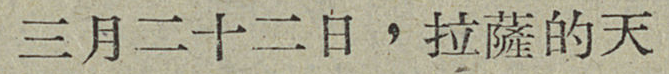三月二十二日，拉薩的天
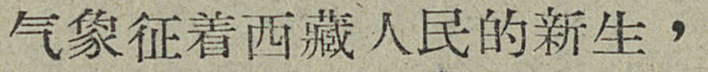气象征着西藏人民的新生，
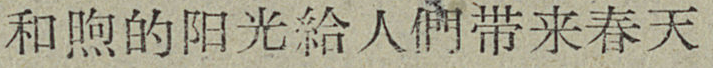和煦的阳光給人們带来春天
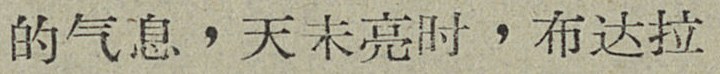的气息，天未亮时，布达拉
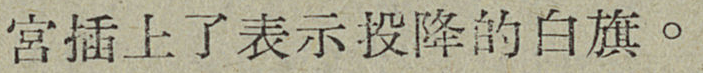宫插上了表示投降的白旗。
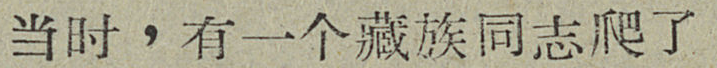当时，有一个藏族同志爬了
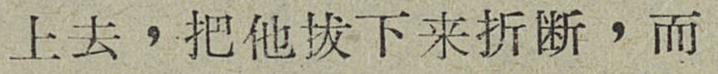上去，把他拔下来折断，而
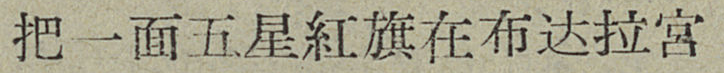把一面五星紅旗在布达拉宫
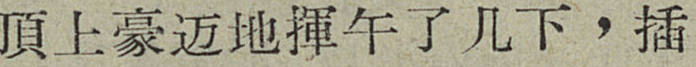頂上豪迈地揮午了几下，插
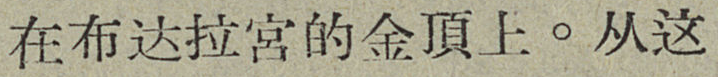在布达拉宫的金頂上。从这
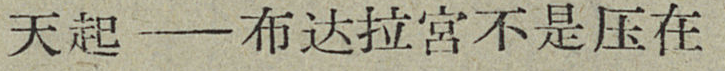天起——布达拉宫不是压在
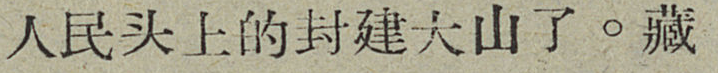人民头上的封建大山了。藏
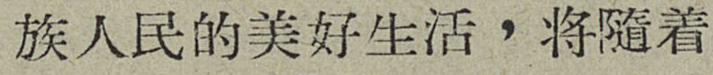组人民的美好生活，將隨着
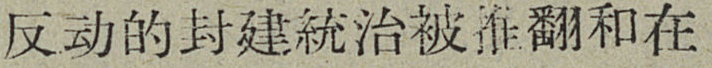反动的封建統治被推翻和在
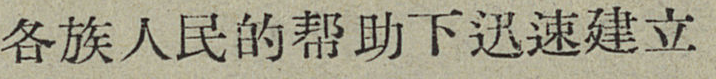各族人民的帮助下迅速建立
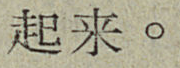起来。
